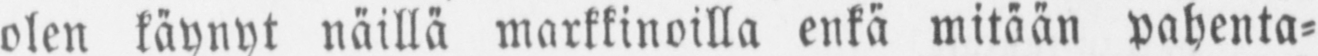olen käynyt näillä markkinoilla enkä mitään pahenta-
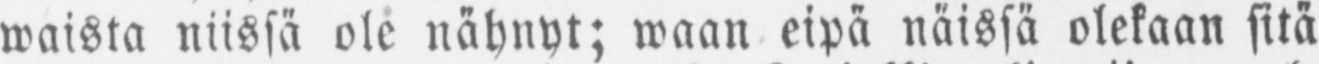waista niissä ole nähnyt; waan eipä näissä olekaan sitä
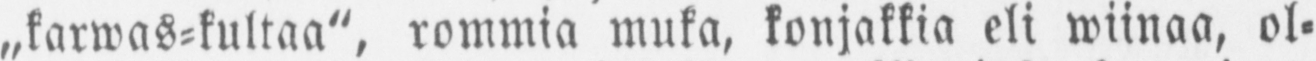„karwas-kultaa", rommia muka, konjakkia eli wiinaa, ol-
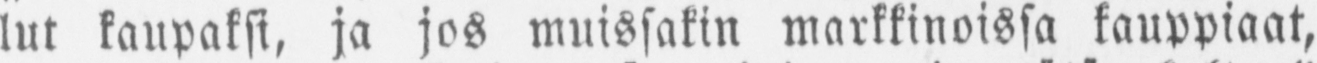lut kaupaksi, ja jos muissakin markkinoissa kauppiaat,
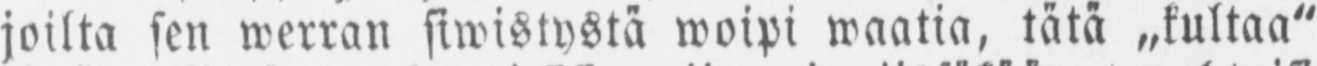joilta sen werran siwistystä woipi waatia, tätä „kultaa"
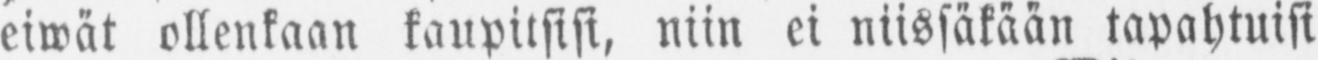eiwät ollenkaan kaupitsisi, niin ei niissäkään tapahtuisi
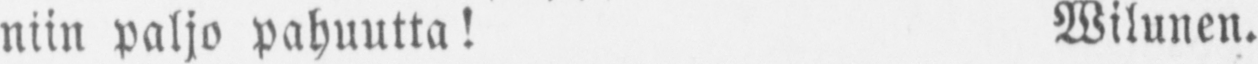niin paljo pahuutta! Wilunen.
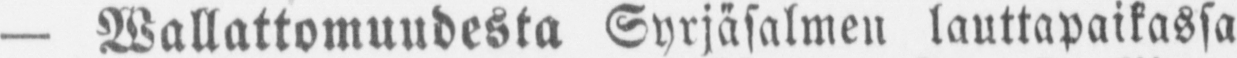— Wallattomuudesta Syrjäsalmen lauttapaikassa
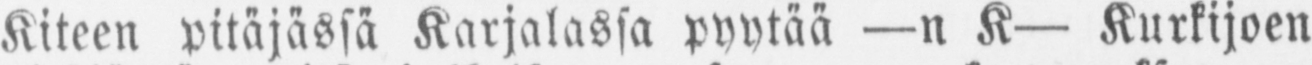Kiteen pitäjässä Karjalassa pyytää —n K — Kurkijoen
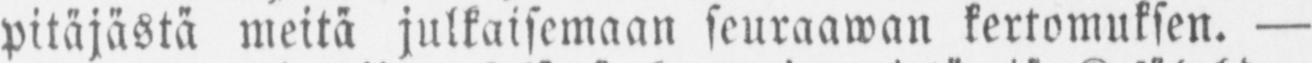pitäjästä meitä julkaisemaan seuraawan kertomuksen. —
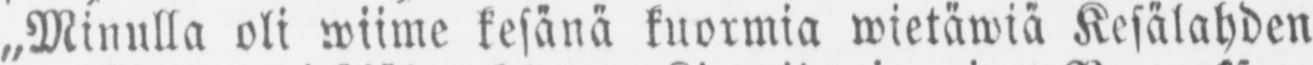„Minulla oli wiime kesänä kuormia wietäwiä Kesälahden
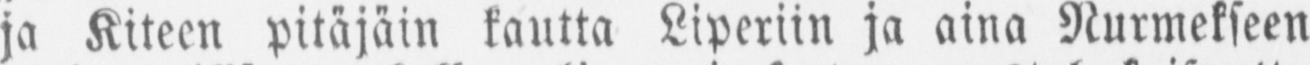ja Kiteen pitäjäin kautta Liperiin ja aina Nurmekseen
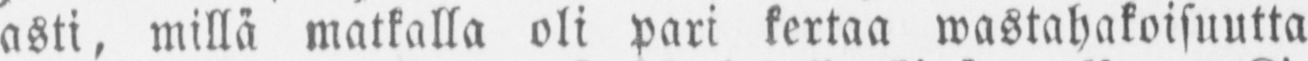asti, millä matkalla oli pari kertaa wastahakoisuutta
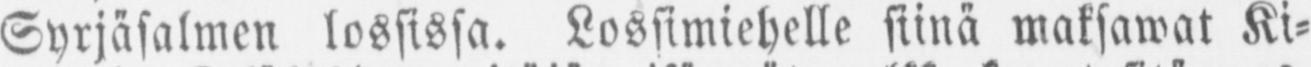Syrjäsalmen lossissa. Lossimiehelle siinä maksawat Ki-
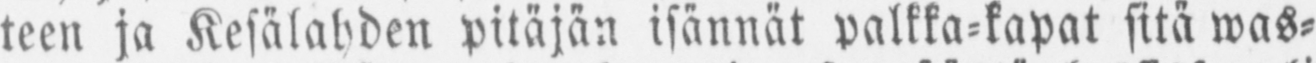teen ja Kesälahden pitäjän isännät palkka-kapat sitä was-
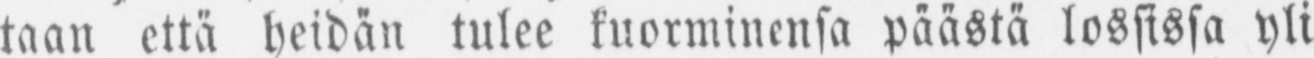taan että heidän tulee kuorminensa päästä lossissa yli
